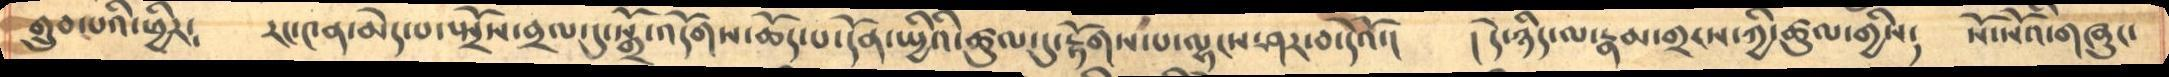གྲུབ་པའི་ཕྱིར༴     རང་༤ན་མེད་པ་སྤྲོས་བྲལ་དུ་སྒྲོ་འདོགས་ཆོད་པ་དོན་སྤྱིའི་ཚུལ་དུ་རྟོགས་པ་ལྷངས་ཤར་བ་དེའོ་།    །དེ་ཉིད་ལ་རྣམ་གྲངས་ཀྱི་ཚུལ་གྱིས༴   སོ་སོའི་གཞུང་
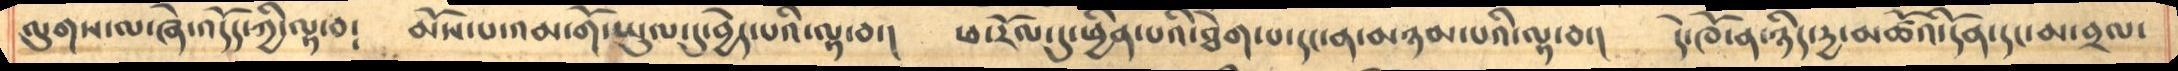ལུགས་ལ་ཞེ་འདོད་ཀྱི་ལྟ་བ༴     མོས་པ་འམ་གོ་ཡུལ་དུ་བྱེད་པའི་ལྟ་བ་།   ཕ་རོལ་དུ་ཕྱིན་པའི་ཐེག་པ་དང་ན་མཉམ་པའི་ལྟ་བ་།   དེ་ཁོ་ན་ཉིད་དྱ་མཚོའི་དོན་དང་མ་བྲལ་
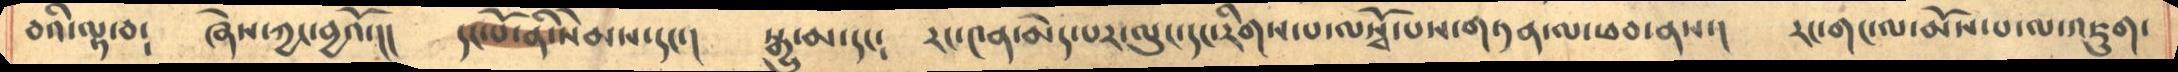བའི་ལྟ་བ༴    ཞེས་ཀྱང་བྱའོ་།།   དང་པོ་ནི་སེམས་དང་།   སྒྱུ་མ་དང༴   རང་༤ན་མེད་པར་ལུང་དང་རིགས་པ་ལསྭོ་པས་གཏན་ལ་ཕབ་ནས་།   རང་གང་ལ་མོས་པ་ལ་འཇུག་
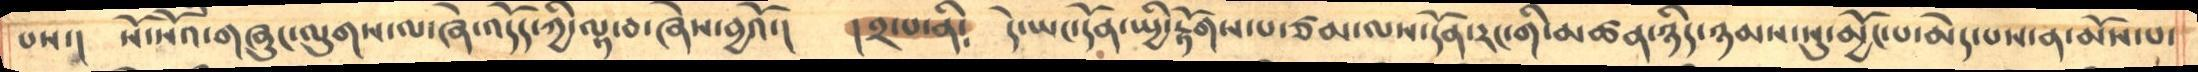པས་།   སོ་སོའི་གཞུང་ལུགས་ལ་ཞེ་འདོད་ཀྱི་ལྟ་བ་ཞེས་བྱའོ་།    །༢་པ་ནི༴   དེ་ཡང་དོན་སྤྱི་རྟོགས་པ་ཙམ་ལས་དོན་རང་གི་མཚན་ཉིད་ཉམས་སུ་མྱོང་པ་མེད་པས་ན་མོས་པ་
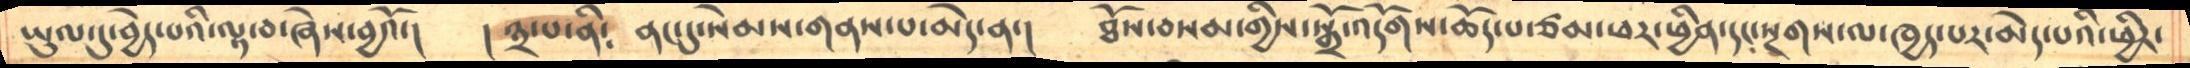ཡུལ་དུ་བྱེད་པའི་ལྟ་བ་ཞེས་བྱའོ་།     །༣་པ་ནི༴   ནང་དུ་སེམས་གནས་པ་མེད་ན་།    ཐོས་བསམ་གྱིས་སྒྲོ་འདོགས་ཆོད་པ་ཙམ་ཕར་ཕྱིན་དང་སྔགས་ལ་ཁྱད་པར་མེད་པའི་ཕྱིར་
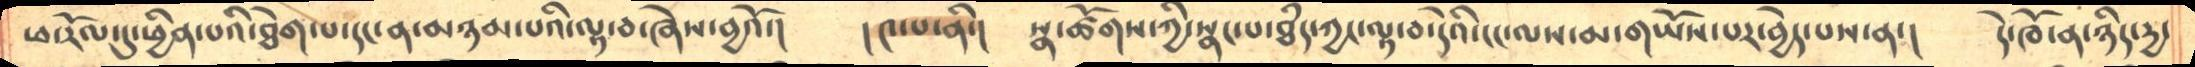ཕ་རོལ་དུ་ཕྱིན་པའི་ཐེག་པ་དང་ན་མཉམ་པའི་ལྟ་བ་ཞེས་བྱའོ་།   །༤་པ་ནི་།   སྣ་ཚོགས་ཀྱི་སྣང་པ་ཐྃད་ཀྱང་ལྟ་བ་དེའི་ངང་ལས་མ་གཡོས་པར་བྱེད་པས་ན་།  དེ་ཁོ་ན་ཉིད་དྱ་
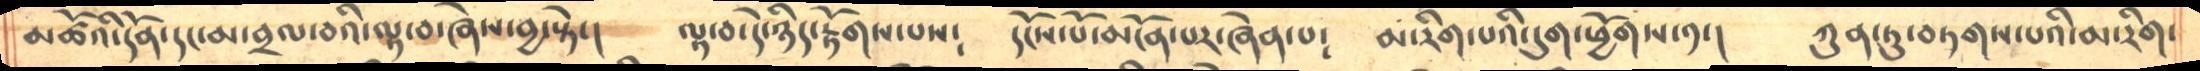མཚོའི་དོན་དང་མ་བྲལ་བའི་ལྟ་བ་ཞེས་བྱ་སྟེ་།   ལྟ་བ་དེ་ཉིད་རྟོགས་པས༴   དངོས་པོ་མངོན་པར་ཞེན་པ༴   མ་རིག་པའི་དུག་ཕྱོགས་༡་།    ཀུན་ཏུ་བཏགས་པའི་མ་རིག་
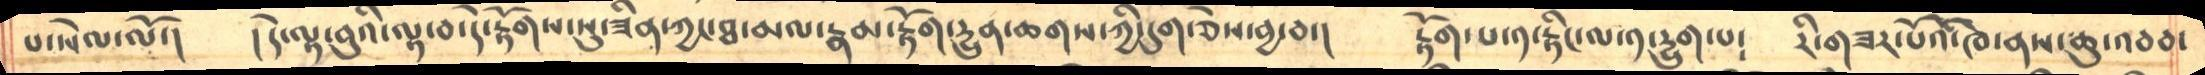པ་སེལ་ལོ་།   །དེ་ལྟ་བུའི་ལྟ་བ་དེ་རྟོགས་སུ་ཟིན་ཀྱང་ཐ་མལ་རྣམ་རྟོག་དྱུན་ཆགས་ཀྱི་དུག་ཅེས་བྱ་བ་།   རྟོག་པ་༡་རྟིང་ལ་༡་དྱུག་པ༴   རི་གཟར་པོའི་ཁ་ནས་ཆུ་འབབ་
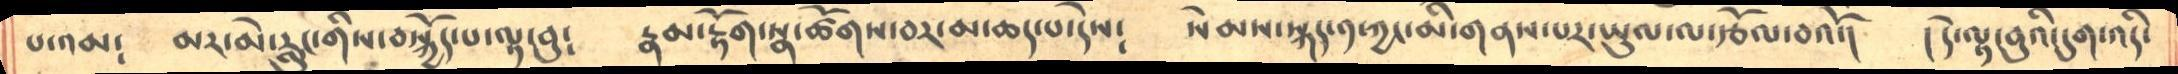པ་འམ༴   མར་མེ་རླུང་གིས་བསྐྱོད་པ་ལྟ་བུ༴   རྣམ་རྟོག་སྣ་ཚོགས་བར་མ་ཆད་པ་དེས༴   སེམས་སྐད་༡་ཀྱང་མི་གནས་པར་ཡུལ་ལ་རྩོལ་བའོ་།    །དེ་ལྟ་བུའི་དུག་འདི་
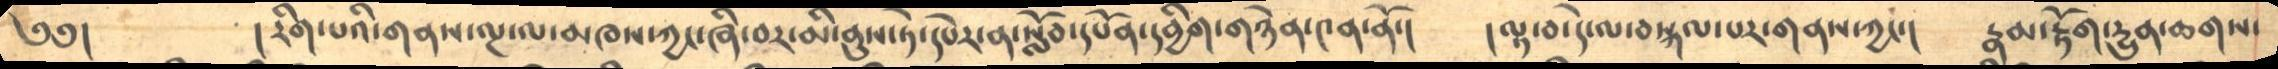༄༅།        །རིག་པའི་གནས་ལྔ་ལ་མཁས་ཀྱང་ཞི་བར་མི་ནུས་ཏེ་དཔེར་ན་སློབ་དཔོན་དབྱིག་གཉེན་༤ན་ནོ་།    །ལྟ་བ་དེ་ལ་བསྐལ་པར་གནས་ཀྱང་།   རྣམ་རྟོག་དྱུན་ཆགས་
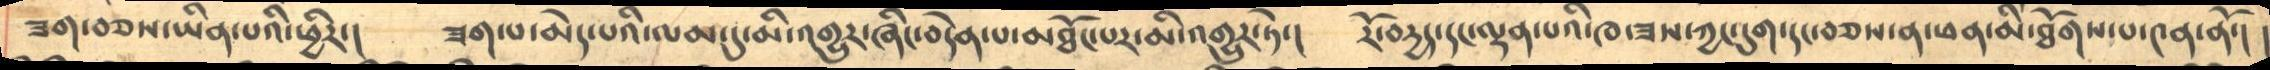ཟག་བཅས་ཡིན་པའི་ཕྱིར་།    ཟག་པ་མེད་པའི་ལམ་དུ་མི་འགྱུར་ཞིང་བདེན་པ་མཐོང་པར་མི་འགྱུར་ཏེ་།    རོ་བདྱད་དང་ལྡན་པའི་ཁ་ཟས་ཀྱང་དུག་དང་བཅས་ན་ཕན་མི་ཐོགས་པ་༤ན་ནོ་།  །
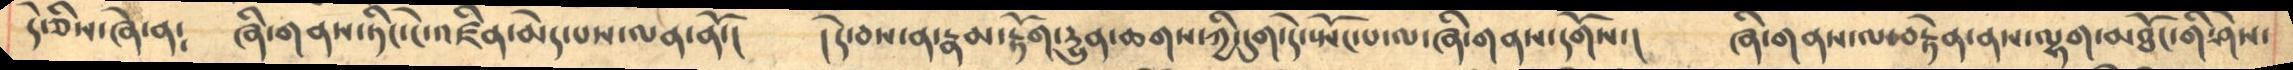དེ་ཅིས་ཞེ་ན༴    ཞི་གནས་ཏིང་ངེ་འཛིན་མེད་པས་ལན་ནོ་།    །དེ་བས་ན་རྣམ་རྟོག་དྱུན་ཆགས་ཀྱི་དུག་དེ་སྤོང་པ་ལ་ཞི་གནས་དགོས་།   ཞི་གནས་ལ་བརྟེན་ནས་ལྷག་མཐོང་གི་ཤེས་
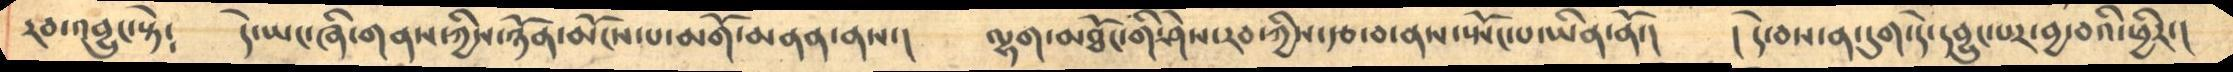རབ་འབྱུང་སྟེ༴    དེ་ཡང་ཞི་གནས་ཀྱིས་ཉོན་མོངས་པ་མགོ་མནན་ནས་།    ལྷག་མཐོང་གི་ཤེས་རབ་ཀྱིས་རྩ་བ་ནས་སྤོང་པ་ཡིན་ནོ་།   །དེ་བས་ན་དུག་དེ་དབྱུང་པར་བྱ་བའི་ཕྱིར་།
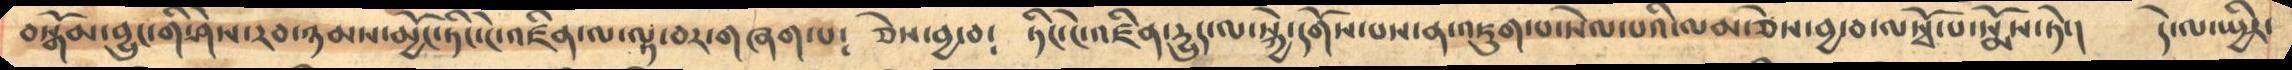བསྒོམ་བྱུང་གི་ཤེས་རབ་ཉམས་མྱོང་ཏིང་ངེ་འཛིན་ལ་ལྟ་བར་གཞག་པ༴  ཅེས་བྱ་བ༴   ཏིང་ངེ་འཛིན་དྱུད་ལ་སྐྱེ་དགོས་པས་ན་འཇུག་པ་སེལ་པའི་ལམ་ཅེས་བྱ་བ་ལསྭོ་པ་སྨོས་ཏེ་།   དེ་ལ་སྤྱིར་
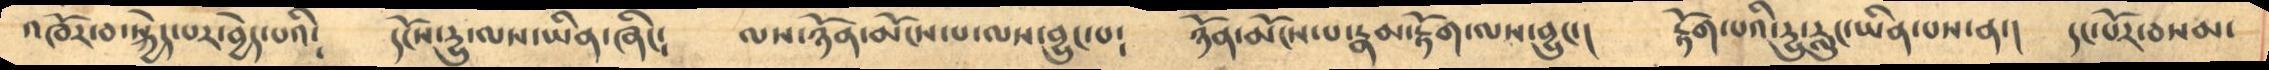འཁོར་བ་སྐྱེད་པར་བྱེད་པའི༴    དངོས་དྱུ་ལས་ཡིན་ཞིང༴    ལས་ཉོན་མོངས་པ་ལས་བྱུང་པ༴   ཉོན་མོངས་པ་རྣམ་རྟོག་ལས་བྱུང་།   རྟོག་པའི་དྱུ་རླུང་ཡིན་པས་ན་།  དང་པོར་བསམ་
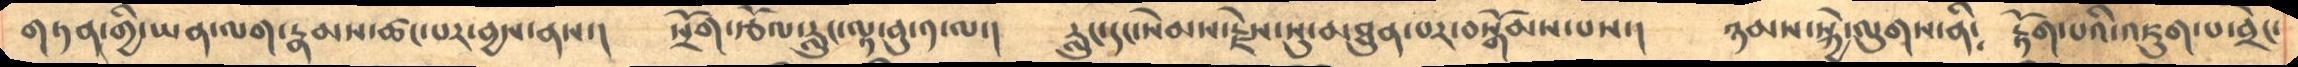གཏན་གྱི་ཡན་ལག་རྣམས་ཚང་པར་བྱས་ནས་།   སྲོག་རྩོལ་རླུང་ལྟ་བུ་༡་ལ་།  རླུང་སེམས་རྗེས་སུ་མཐུན་པར་བསྒོམས་པས་།  ཉམས་སྐྱེ་ལུགས་ནི༴ རྟོག་པའི་འཇུག་པ་བྲེང་
